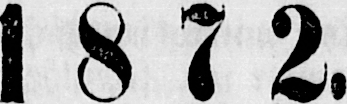1 872.
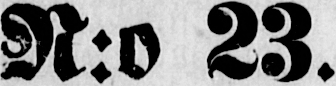N:o 23.
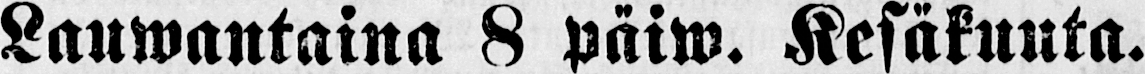Lauwantaina 8 päiw. Kesäkuuta.
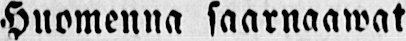Huomenna saarnaawat
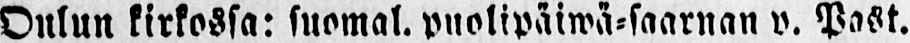Oulun kirkossa: suomal. puolipäiwä-saarnan v. Past.
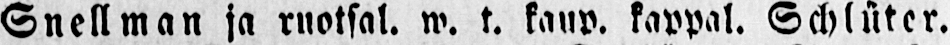Snellman ja rnotsal. w. t. kaup. kappal. Schlüter.
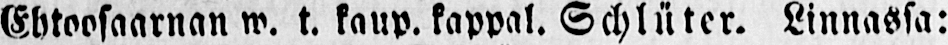Ehtoosaarnan w. t. kaup. kappal. Schlüter. Linnassa:
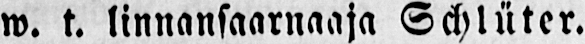w. t. linnansaarnaaja Schlüter.
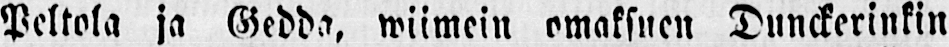Peltola ja Gedda, wiimein omaksuen Dunckerinkin
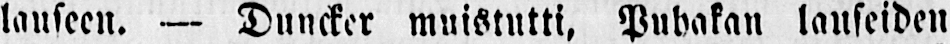lauseen. — Duncker muistutti, Puhakan lauseiden
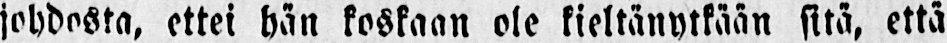johdosta, ettei hän koskaan ole kieltänytkään sitä, että
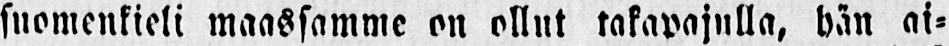suomenkieli maassamme on ollut takapajulla, hän ai-
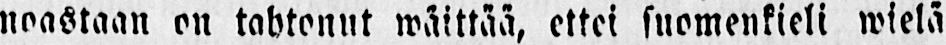noastaan on tahtonut wäittää, ettei suomenkieli wielä
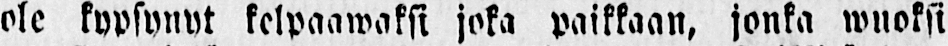ole kypsynyt kelpaawaksi joka paikkaan, jonka wuoksi
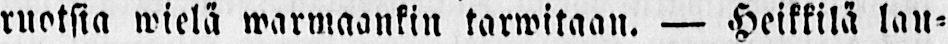ruotsia wielä warmaankin tarwitaan. — Heikkilä lau-
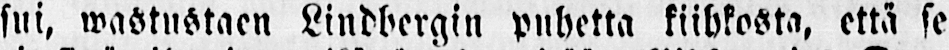sui, wastustaen Lindbergin puhetta kiihkosta, että se
